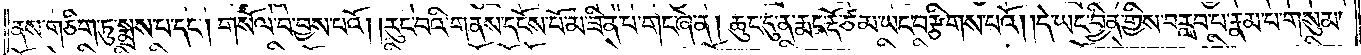ནས་གཅིག་ཏུ་སྨྲས་པ་དང༌། གསོལ་བ་བྱས་པའོ། །རུང་བའི་གནས་དངོས་པོ་མ་ཟིན་པ་གང་ཞེ་ན། ཆུང་ངུ་ན་རྨང་རྡོ་ཙམ་ཡང་བརྩིགས་པའོ། །དེ་ཡང་བྱིན་གྱིས་བརླབ་པ་རྣམ་པ་གསུམ་
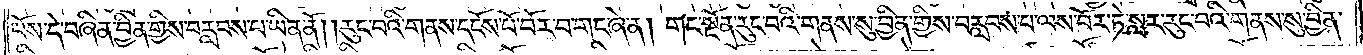པོས་དེ་བཞིན་བྱིན་གྱིས་བརླབས་པ་ཡིན་ནོ། །རུང་བའི་གནས་དངོས་པོ་བོར་བ་གང་ཞེ་ན། གང་སྔོན་རུང་བའི་གནས་སུ་བྱིན་གྱིས་བརླབས་པ་ལས་བོར་ཏེ་སླར་རུང་བའི་གནས་སུ་བྱིན་
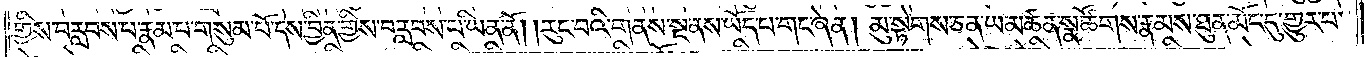གྱིས་བརླབས་པ་རྣམ་པ་གསུམ་པོ་དེས་བྱིན་གྱིས་བརླབས་པ་ཡིན་ནོ། །རུང་བའི་གནས་སྔ་ནས་ཡོད་པ་གང་ཞེ་ན། མུ་སྟེགས་ཅན་ཡ་མཚན་སྣ་ཚོགས་རྣམས་ཐུན་མོང་དུ་གྱུར་པ་
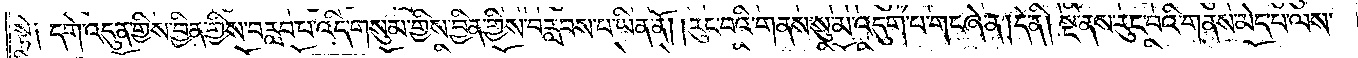སྟེ༑ དགེ་འདུན་གྱིས་བྱིན་གྱིས་བརླབ་པ་འདི་གསུམ་གྱིས་བྱིན་གྱིས་བརླབས་པ་ཡིན་ནོ། །རུང་བའི་གནས་སུ་མ་འདུག་པ་གང་ཞེ་ན། དེ་ནི། སྔ་ནས་རུང་བའི་གནས་མེད་པ་ལས་
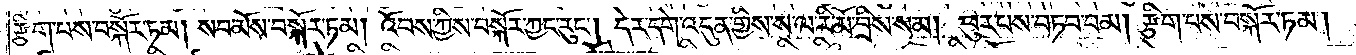རྩིག་པས་བསྐོར་ཏམ། སབ་མོས་བསྐོར་ཏམ། འོབས་ཀྱིས་བསྐོར་ཀྱང་རུང༌། དེར་དགེ་འདུན་གྱིས་ས་ལ་རི་མོ་བྲིས་སམ། ཕུར་པས་བཏབ་བམ། རྩིག་པས་བསྐོར་ཏམ།
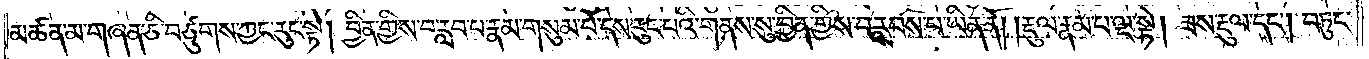མཚན་མ་གཞན་ཅི་བཙུགས་ཀྱང་རུང་སྟེ། བྱིན་གྱིས་བརླབ་པ་རྣམ་གསུམ་པོ་དེས་རུང་བའི་གནས་སུ་བྱིན་གྱིས་བརླབས་པ་ཡིན་ནོ། །རྡུལ་རྣམ་པ་ལྔ་སྟེ། ཟས་རྡུལ་དང༌། བཏུང་
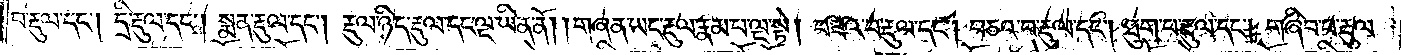བ་རྡུལ་དང༌། དྲི་རྡུལ་དང༌། སྨན་རྡུལ་དང༌། རྡུལ་ཉིད་རྡུལ་དང་ལྔ་ཡིན་ནོ། །གཞན་ཡང་རྡུལ་རྣམ་པ་ལྔ་སྟེ། བཟའ་བ་རྡུལ་དང༌། བཅའ་བ་རྡུལ་དང༌། ཐུག་པ་རྡུལ་དང༌། གཞིབ་པ་རྡུལ་
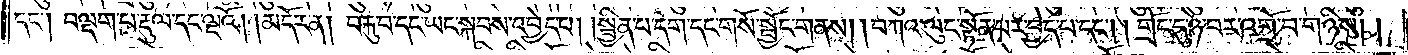དང༌། བལྡག་པ་རྡུལ་དང་ལྔའོ། །མདོར་ན། བརྐུ་བ་དང་ཡང་སྐབས་འབྱེད་པ། །སྦྱིན་པ་དག་དང་གསོ་སྦྱིན་གནས། །བཀའ་ལུང་སྟོན་པར་བྱེད་པ་དང༌། གྲོང་དུ་ཉེ་བར་འགྲོ་བ་གཉིས༎
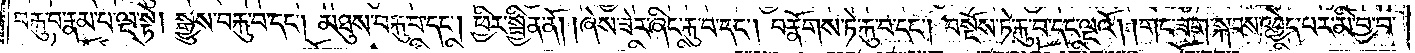བརྐུ་བ་རྣམ་པ་ལྔ་སྟེ། སྒྱུས་བརྐུ་བ་དང༌། མཐུས་བརྐུ་བ་དང༌། ཕྱིར་སྦྱིན་ནོ། །ཞེས་ཟེར་ཞིང་རྐུ་བ་དང༌། བརྣོགས་ཏེ་རྐུ་བ་དང༌། བསྔོས་ཏེ་རྐུ་བ་དང་ལྔའོ། །གང་ཟག་སྐབས་འབྱེད་པར་མི་བྱ་བ་
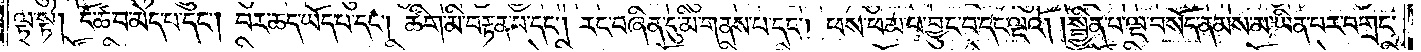ལྟ་སྟེ། ངོ་ཚ་བ་མེད་པ་དང༌། བར་ཆད་ཡོད་པ་དང༌། ཚིག་མི་བརྟན་པ་དང༌། རང་བཞིན་དུ་མི་གནས་པ་དང༌། ཕས་ཕམ་པ་བྱུང་བ་དང་ལྔའོ། །སྦྱིན་པ་ལྔ་བསོད་ནམས་མ་ཡིན་པར་བགྲང་
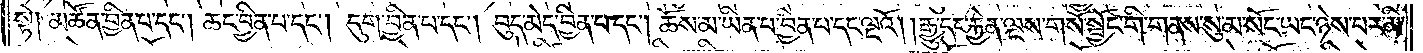སྟེ། མཚོན་བྱིན་པ་དང༌། ཆང་བྱིན་པ་དང༌། དུག་བྱིན་པ་དང༌། བུད་མེད་བྱིན་པ་དང༌། ཆོས་མ་ཡིན་པ་བྱིན་པ་དང་ལྔའོ། །རྒྱུ་དང་རྐྱེན་ལྔས་གསོ་སྦྱོང་གི་གནས་སུ་མ་སོང་ཡང་ཉེས་པར་མི་
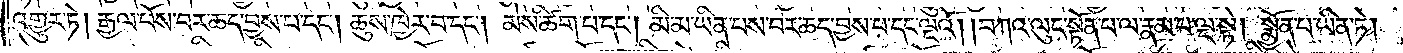འགྱུར་ཏེ། རྒྱལ་པོས་བར་ཆད་བྱས་པ་དང༌། ཆུས་ཁྱེར་བ་དང༌། མེས་ཚིག་པ་དང༌། མི་མ་ཡིན་པས་བར་ཆད་བྱས་པ་དང་ལྔའོ། །བཀའ་ལུང་སྟོན་པ་ལ་རྣམ་པ་ལྔ་སྟེ། སྨྱོན་པ་ཡིན་ཏེ།
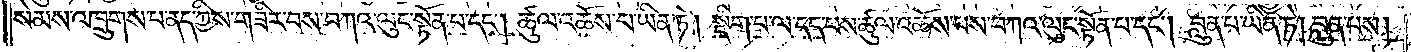སེམས་ལ་འཁྲུགས་པ་ནད་ཀྱིས་གཟིར་བས་བཀའ་ལུང་སྟོན་པ་དང༌། ཚུལ་འཆོས་པ་ཡིན་ཏ། སྡིག་པ་ལ་དད་པས་ཚུལ་འཆོས་པས་བཀའ་ལུང་སྟོན་པ་དང༌། བླུན་པ་ཡིན་ཏེ། བླུན་པས།
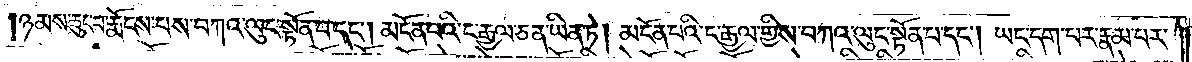ཉམས་ཆུང་བ་རྨོངས་པས་བཀའ་ལུང་སྟོན་པ་དང༌། མངོན་པའི་ང་རྒྱལ་ཅན་ཡིན་ཏེ། མངོན་པའི་ང་རྒྱལ་གྱིས་བཀའ་ལུང་སྟོན་པ་དང༌། ཡང་དག་པར་རྣམ་པར་
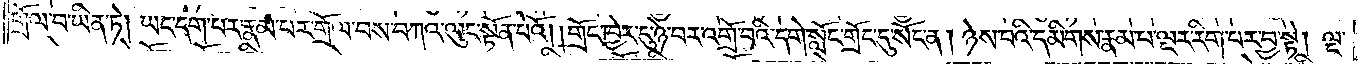གྲོལ་བ་ཡིན་ཏེ། ཡང་དག་པར་རྣམ་པར་གྲོལ་བས་བཀའ་ལུང་སྟོན་པའོ། །གྲོང་ཁྱེར་དུ་ཉེ་བར་འགྲོ་བའི་དགེ་སློང་གྲོང་དུ་སོང་ན། ཉེས་པའི་དམིགས་རྣམ་པ་ལྔར་རིག་པར་བྱ་སྟེ། ལྔ་
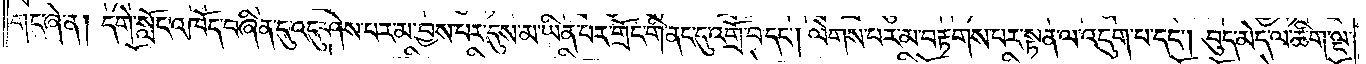གང་ཞེ་ན། དགེ་སློང་འཁོད་བཞིན་དུ་འདུ་ཤེས་པར་མ་བྱས་པར་དུས་མ་ཡིན་པར་གྲོང་གི་ནང་དུ་འགྲོ་བ་དང༌། ལེགས་པར་མ་བརྟགས་པར་སྟན་ལ་འདུག་པ་དང༌། བུད་མེད་ལ་ཚིག་ལྔ་
